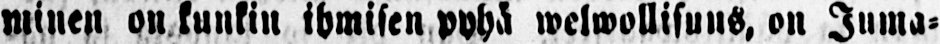minen on kunkin ihmisen pyhä welwollisuus, on Juma-
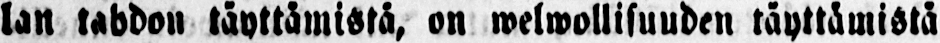lan tahdon täyttämistä, on welwollisuuden täyttämistä
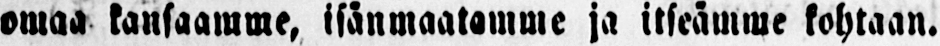omaa kansaamme, isänmaatamme ja itseämme kohtaan.
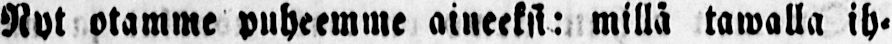Nyt otamme puheemme aineeksi: millä tawalla ih-
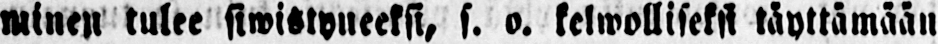minen tulee siwistyneeksi, s. o. kelwolliseksi täyttämään
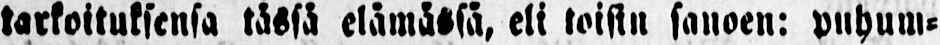tarkoituksensa tässä elämässä, eli toisin sanoen: puhum-
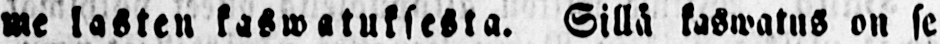me lasten kaswatuksesta. Sillä kaswatus on se
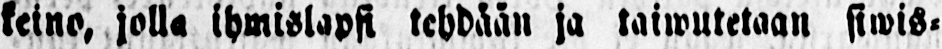keino, jolla ihmislapsi tehdään ja taiwutetaan siwis-
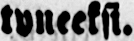tyneeksi.
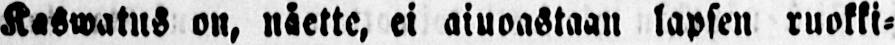Kaswatus on, näette, ei ainoastaan lapsen ruokki-
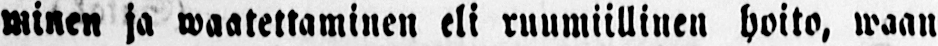minen ja waatettaminen eli ruumiillinen hoito, waan
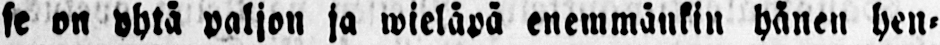se on yhtä paljon ja wieläpä enemmänkin hänen hen-
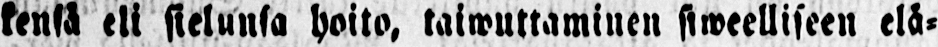kensä eli sielunsa hoito, taiwuttaminen siweelliseen elä-
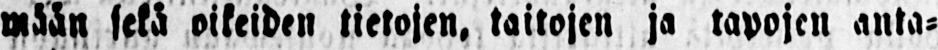mään setä oikeiden tietojen, taitojen ja tapojen anta-
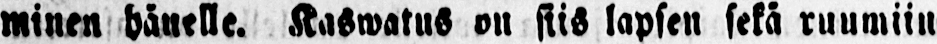minen hänelle. Kaswatus on siis lapsen sekä ruumiin
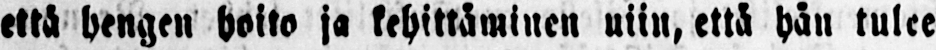että hengen hoito ja kehittäminen niin, että hän tulee
